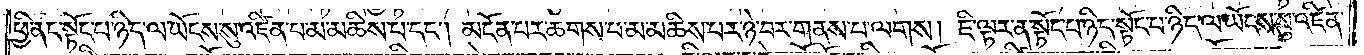ཕྱི་ནང་སྟོང་པ་ཉིད་ལ་ཡོངས་སུ་འཛིན་པ་མ་མཆིས་པ་དང༌། མངོན་པར་ཆགས་པ་མ་མཆིས་པར་ཉེ་བར་གནས་པ་ལགས། ཇི་ལྟར་ན་སྟེང་པ་ཉིད་སྟོང་པ་ཉིད་ལ་ཡོངས་སུ་འཛིན་
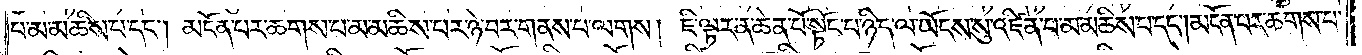པ་མ་མཆིས་པ་དང༌། མངོན་པར་ཆགས་པ་མ་མཆིས་པར་ཉེ་བར་གནས་པ་ལགས། ཇི་ལྟར་ན་ཆེན་པོ་སྟོང་པ་ཉིད་ལ་ཡོངས་སུ་འཛིན་པ་མ་མཆིས་པ་དང༌། མངོན་པར་ཆགས་པ་
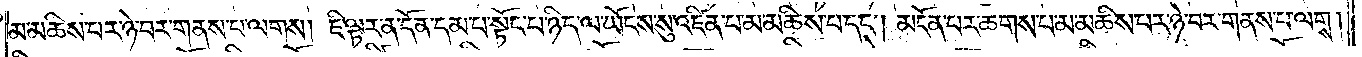མ་མཆིས་པར་ཉེ་བར་གནས་པ་ལགས། ཇི་ལྟར་ན་དོན་དམ་པ་སྟོང་པ་ཉིད་ལ་ཡོངས་སུ་འཛིན་པ་མ་མཆིས་པ་དང༌། མངོན་པར་ཆགས་པ་མ་མཆིས་པར་ཉེ་བར་གནས་པ་ལགས།
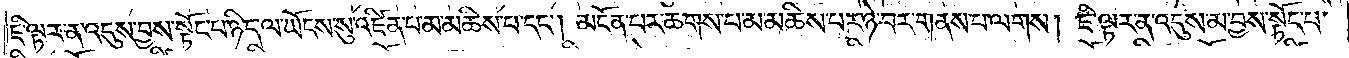ཇི་ལྟར་ན་འདུས་བྱས་སྟོང་པ་ཉིད་ལ་ཡོངས་སུ་འཛིན་པ་མ་མཆིས་པ་དང༌། མངོན་པར་ཆགས་པ་མ་མཆིས་པར་ཉེ་བར་གནས་པ་ལགས། ཇི་ལྟར་ན་འདུས་མ་བྱས་སྟོང་པ་
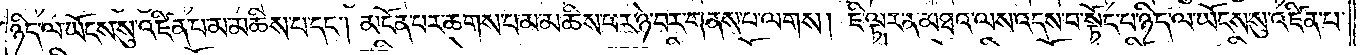ཉིད་ལ་ཡོངས་སུ་འཛིན་པ་མ་མཆིས་པ་དང༌། མངོན་པར་ཆགས་པ་མ་མཆིས་པར་ཉེ་བར་གནས་པ་ལགས། ཇི་ལྟར་ན་མཐའ་ལས་འདས་པ་སྟོང་པ་ཉིད་ལ་ཡོངས་སུ་འཛིན་པ་
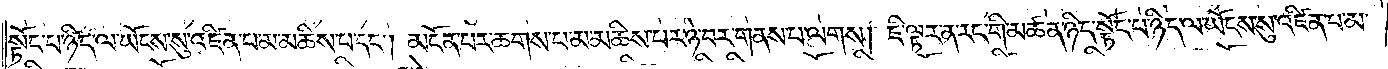སྟོང་པ་ཉིད་ལ་ཡོངས་སུ་འཛིན་པ་མ་མཆིས་པ་དང༌། མངོན་པར་ཆགས་པ་མ་མཆིས་པར་ཉེ་བར་གནས་པ་ལགས། ཇི་ལྟར་ན་རང་གི་མཚན་ཉིད་སྟོང་པ་ཉིད་ལ་ཡོངས་སུ་འཛིན་པ་མ་
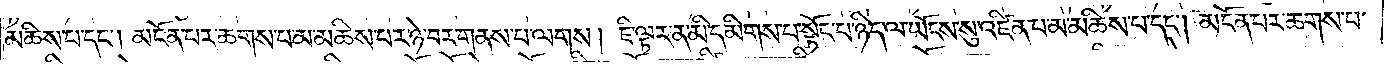མཆིས་པ་དང༌། མངོན་པར་ཆགས་པ་མ་མཆིས་པར་ཉེ་བར་གནས་པ་ལགས། ཇི་ལྟར་ན་མི་དམིགས་པ་སྟོང་པ་ཉིད་ལ་ཡོངས་སུ་འཛིན་པ་མ་མཆིས་པ་དང༌། མངོན་པར་ཆགས་པ་
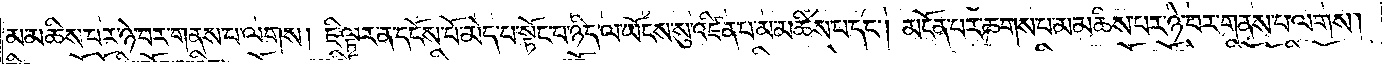མ་མཆིས་པར་ཉེ་བར་གནས་པ་ལགས། ཇི་ལྟར་ན་དངོས་པོ་མེད་པ་སྟོང་པ་ཉིད་ལ་ཡོངས་སུ་འཛིན་པ་མ་མཆིས་པ་དང༌། མངོན་པར་ཆགས་པ་མ་མཆིས་པར་ཉེ་བར་གནས་པ་ལགས།
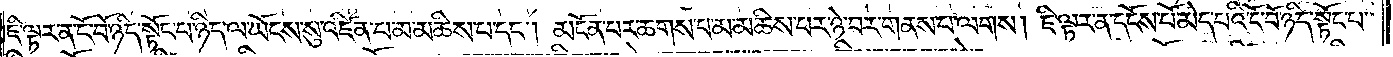ཇི་ལྟར་ན་ངོ་བོ་ཉིད་སྟོང་པ་ཉིད་ལ་ཡོངས་སུ་འཛིན་པ་མ་མཆིས་པ་དང༌། མངོན་པར་ཆགས་པ་མ་མཆིས་པར་ཉེ་བར་གནས་པ་ལགས། ཇི་ལྟར་ན་དངོས་པོ་མེད་པའི་ངོ་བོ་ཉིད་སྟོང་པ་
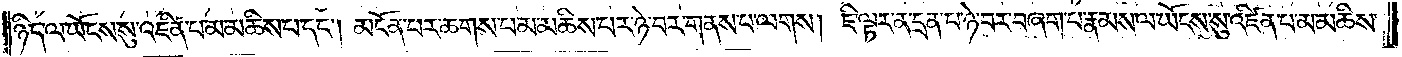ཉིད་ལ་ཡོངས་སུ་འཛིན་པ་མ་མཆིས་པ་དང༌། མངོན་པར་ཆགས་པ་མ་མཆིས་པར་ཉེ་བར་གནས་པ་ལགས། ཇི་ལྟར་ན་དྲན་པ་ཉེ་བར་བཞག་པ་རྣམས་ལ་ཡོངས་སུ་འཛིན་པ་མ་མཆིས་
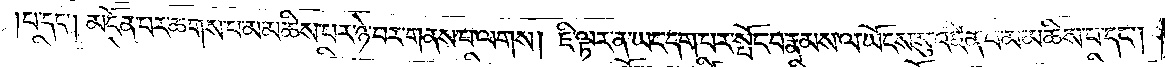པ་དང༌། མངོན་པར་ཆགས་པ་མ་མཆིས་པར་ཉེ་བར་གནས་པ་ལགས། ཇི་ལྟར་ན་ཡང་དག་པར་སྤོང་བ་རྣམས་ལ་ཡོངས་སུ་འཛིན་པ་མ་མཆིས་པ་དང༌།
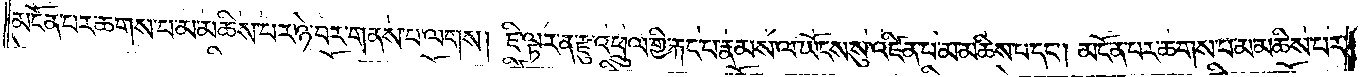མངོན་པར་ཆགས་པ་མ་མཆིས་པར་ཉེ་བར་གནས་པ་ལགས། ཇི་ལྟར་ན་རྫུ་འཕྲུལ་གྱི་རྐང་པ་རྣམས་ལ་ཡོངས་སུ་འཛིན་པ་མ་མཆིས་པ་དང༌། མངོན་པར་ཆགས་པ་མ་མཆིས་པར་
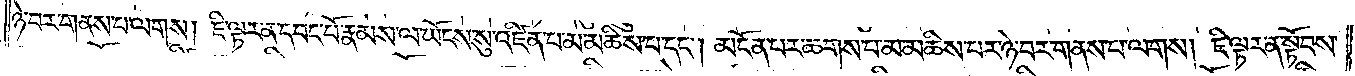ཉེ་བར་གནས་པ་ལགས། ཇི་ལྟར་ན་དབང་པོ་རྣམས་ལ་ཡོངས་སུ་འཛིན་པ་མ་མཆིས་པ་དང༌། མངོན་པར་ཆགས་པ་མ་མཆིས་པར་ཉེ་བར་གནས་པ་ལགས། ཇི་ལྟར་ན་སྟོབས་
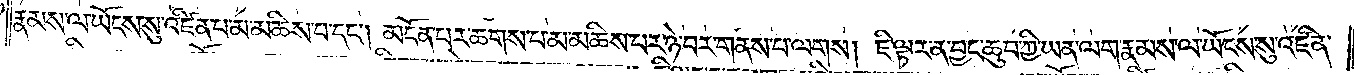རྣམས་ལ་ཡོངས་སུ་འཛིན་པ་མ་མཆིས་པ་དང༌། མངོན་པར་ཆགས་པ་མ་མཆིས་པར་ཉེ་བར་གནས་པ་ལགས། ཇི་ལྟར་ན་བྱང་ཆུབ་ཀྱི་ཡན་ལག་རྣམས་ལ་ཡོངས་སུ་འཛིན་
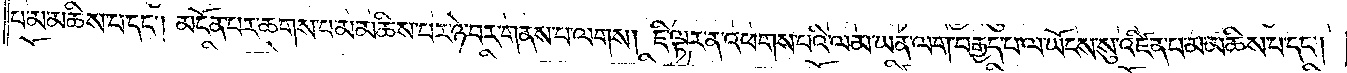པ་མ་མཆིས་པ་དང༌། མངོན་པར་ཆགས་པ་མ་མཆིས་པར་ཉེ་བར་གནས་པ་ལགས། ཇི་ལྟར་ན་འཕགས་པའི་ལམ་ཡན་ལག་བརྒྱད་པ་ལ་ཡོངས་སུ་འཛིན་པ་མ་མཆིས་པ་དང༌།
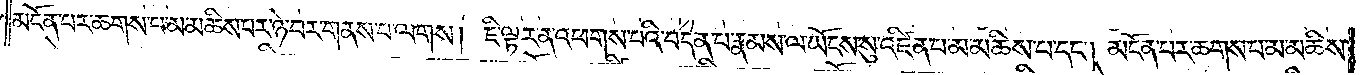མངོན་པར་ཆགས་པ་མ་མཆིས་པར་ཉེ་བར་གནས་པ་ལགས། ཇི་ལྟར་ན་འཕགས་པའི་བདེན་པ་རྣམས་ལ་ཡོངས་སུ་འཛིན་པ་མ་མཆིས་པ་དང༌། མངོན་པར་ཆགས་པ་མ་མཆིས་
